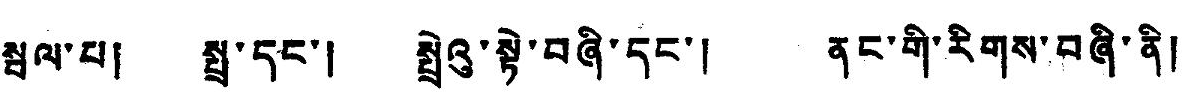སྦལ་པ། སྤྲ་དང་། སྤྲེའུ་སྟེ་བཞི་དང་། ནང་གི་རིགས་བཞི་ནི།
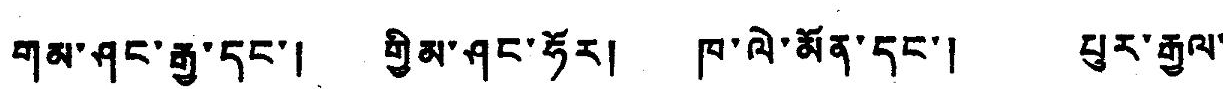གམ་ཤང་རྒྱ་དང་། གྱིམ་ཤང་ཧོར། ཁ་ལེ་མོན་དང་། པུར་རྒྱལ་
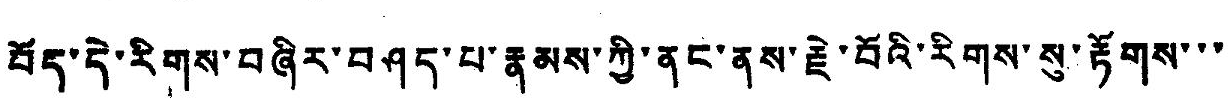བོད་དེ་རིགས་བཞིར་བཤད་པ་རྣམས་ཀྱི་ནང་ནས་རྗེ་བོའི་རིགས་སུ་རྟོགས་་་
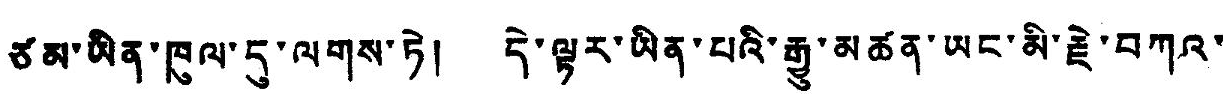ཙམ་ཡིན་ཁུལ་དུ་ལགས་ཏེ། དེ་ལྟར་ཡིན་པའི་རྒྱུ་མཚན་ཡང་མི་རྗེ་བཀའ་
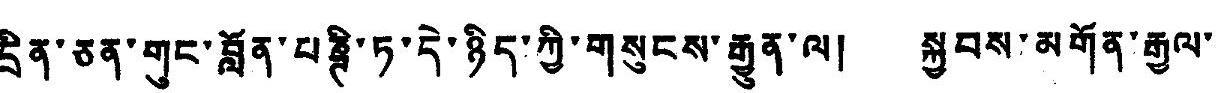དྲིན་ཅན་གུང་བློན་པཎྚི་ཏ་དེ་ཉིད་ཀྱི་གསུངས་རྒྱུན་ལ། སྐྱབས་མགོན་རྒྱལ་
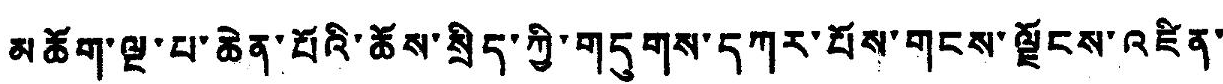མཆོག་ལྔ་པ་ཆེན་པོའི་ཆོས་སྲིད་ཀྱི་གདུགས་དཀར་པོས་གངས་ལྗོངས་འཛིན་
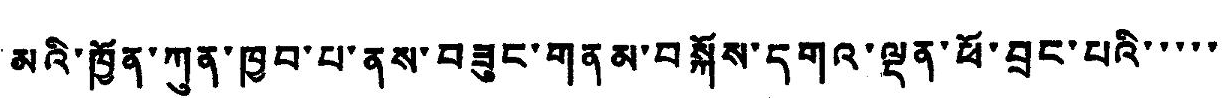མའི་ཁྱོན་ཀུན་ཁྱབ་པ་ནས་བཟུང་གནམ་བསྐོས་དགའ་ལྡན་ཕོ་བྲང་པའི་་་་་
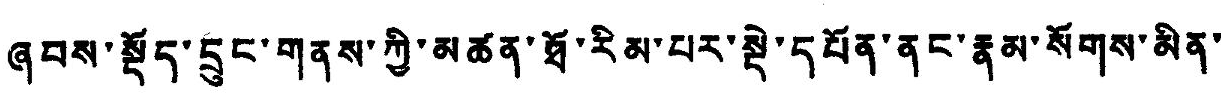ཞབས་སྡོད་དྲུང་གནས་ཀྱི་མཚན་ཐོ་རིམ་པར་སྡེ་དཔོན་ནང་རྣམ་སོགས་མིན་
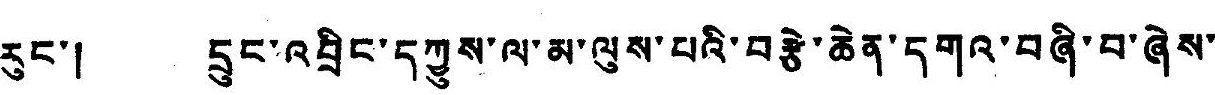རུང་། དྲུང་འབྲིང་དཀྱུས་ལ་མ་ལུས་པའི་བརྩེ་ཆེན་དགའ་བཞི་བ་ཞེས་
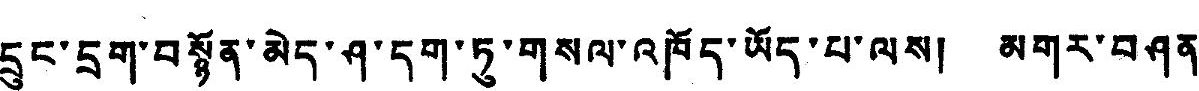དྲུང་དྲག་བསྙོན་མེད་ཤ་དག་ཏུ་གསལ་འཁོད་ཡོད་པ་ལས། མགར་བཤན་
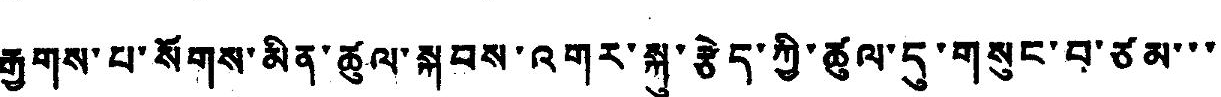རྒྱགས་པ་སོགས་མིན་ཚུལ་སྐབས་འགར་སྐུ་རྩེད་ཀྱི་ཚུལ་དུ་གསུང་བ་ཙམ་་་
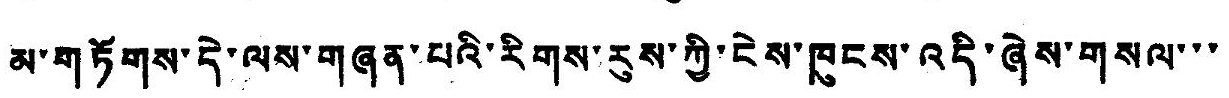མ་གཏོགས་དེ་ལས་གཞན་པའི་རིགས་རུས་ཀྱི་ངེས་ཁུངས་འདི་ཞེས་གསལ་་་
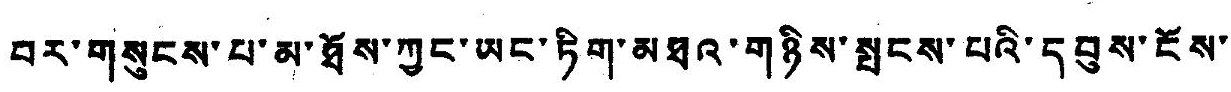བར་གསུངས་པ་མ་ཐོས་ཀྱང་ཡང་ཏིག་མཐའ་གཉིས་སྤངས་པའི་དབུས་ངོས་
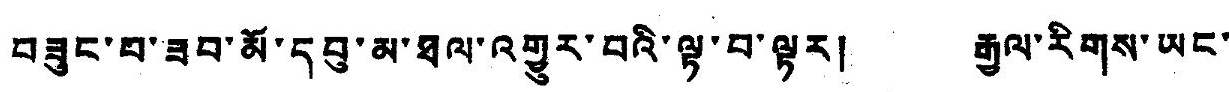བཟུང་བ་ཟབ་མོ་དབུ་མ་ཐལ་འགྱུར་བའི་ལྟ་བ་ལྟར། རྒྱལ་རིགས་ཡང་
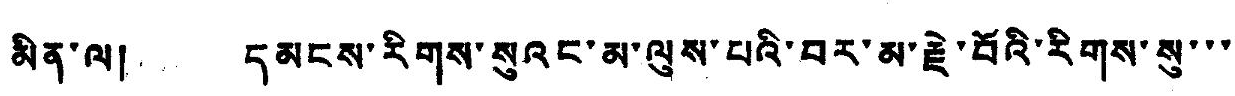མིན་ལ། དམངས་རིགས་སུའང་མ་ལུས་པའི་བར་མ་རྗེ་བོའི་རིགས་སུ་་་
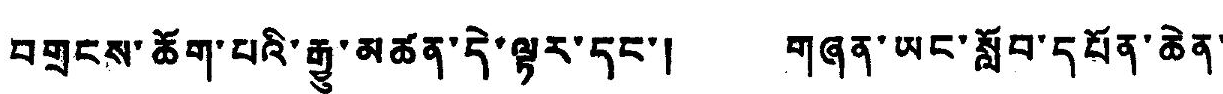བགྲངས་ཆོག་པའི་རྒྱུ་མཚན་དེ་ལྟར་དང་། གཞན་ཡང་སློབ་དཔོན་ཆེན་
